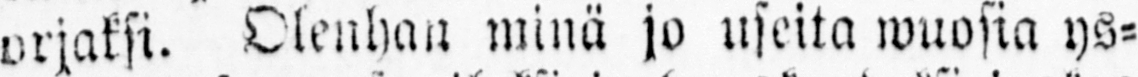orjaksi. Olenhan minä jo useita wuosia ys-
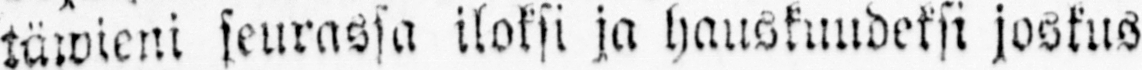täwieni seurassa iloksi ja hauskuudeksi joskus
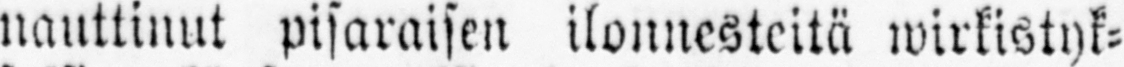nauttinut pisaraisen ilonnesteitä wirkistyk-
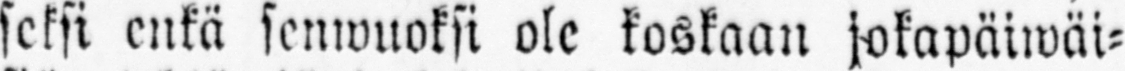seksi enkä senwuoksi ole koskaan jokapäiwäi-
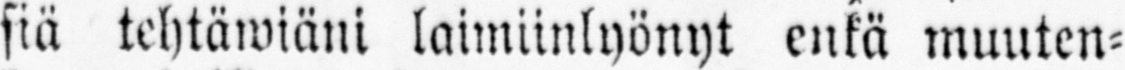siä tehtäwiäni laimiinlyönyt enkä muuten-
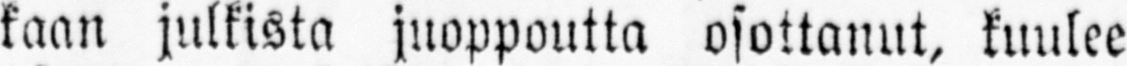kaan julkista juoppoutta osottanut, kuulee
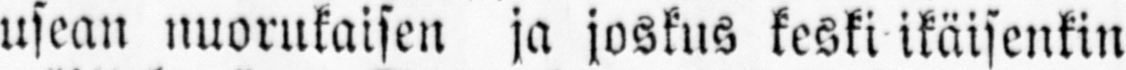usean nuorukaisen ja joskus keski ikäisenkin
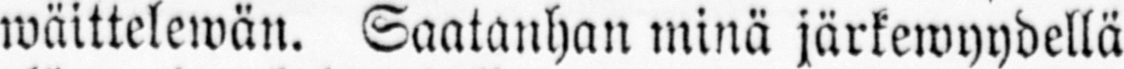wäittelewän. Saatanhan minä järkewyydellä
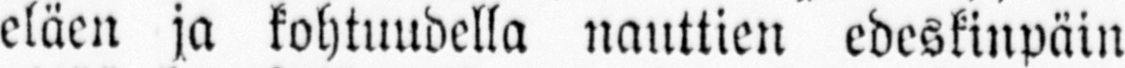eläen ja kohtuudella nauttien edeskinpäin
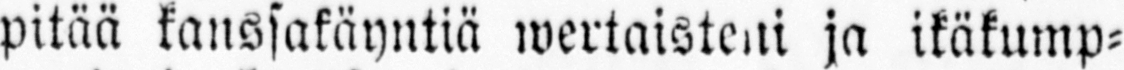pitää kanssakäyntiä wertaisteni ja ikäkump-
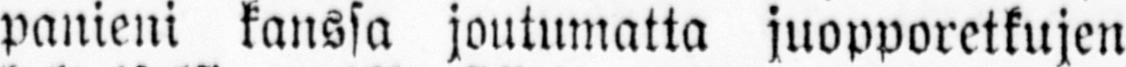panieni kanssa joutumatta juopporetkujen
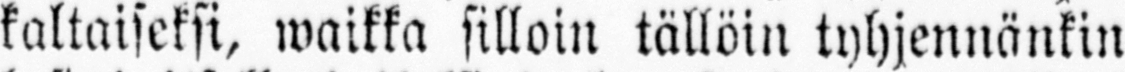kaltaiseksi, waikka silloin tällöin tyhjennänkin
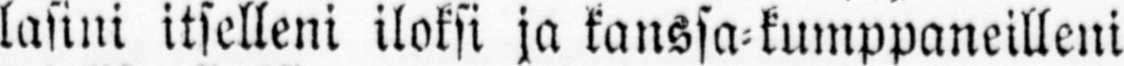lasini itselleni iloksi ja kanssa-kumppaneilleni
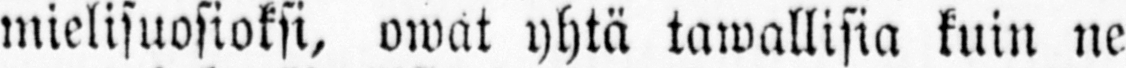mielisuosioksi, owat yhtä tawallisia kuin ne
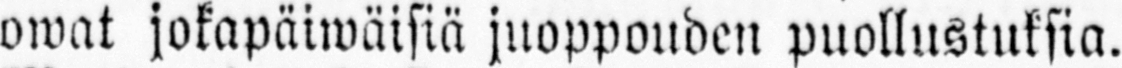owat jokapäiwäisiä juoppouden puollustuksia.
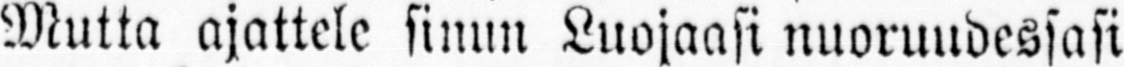Mutta ajattele sinun Luojaasi nuoruudessasi
